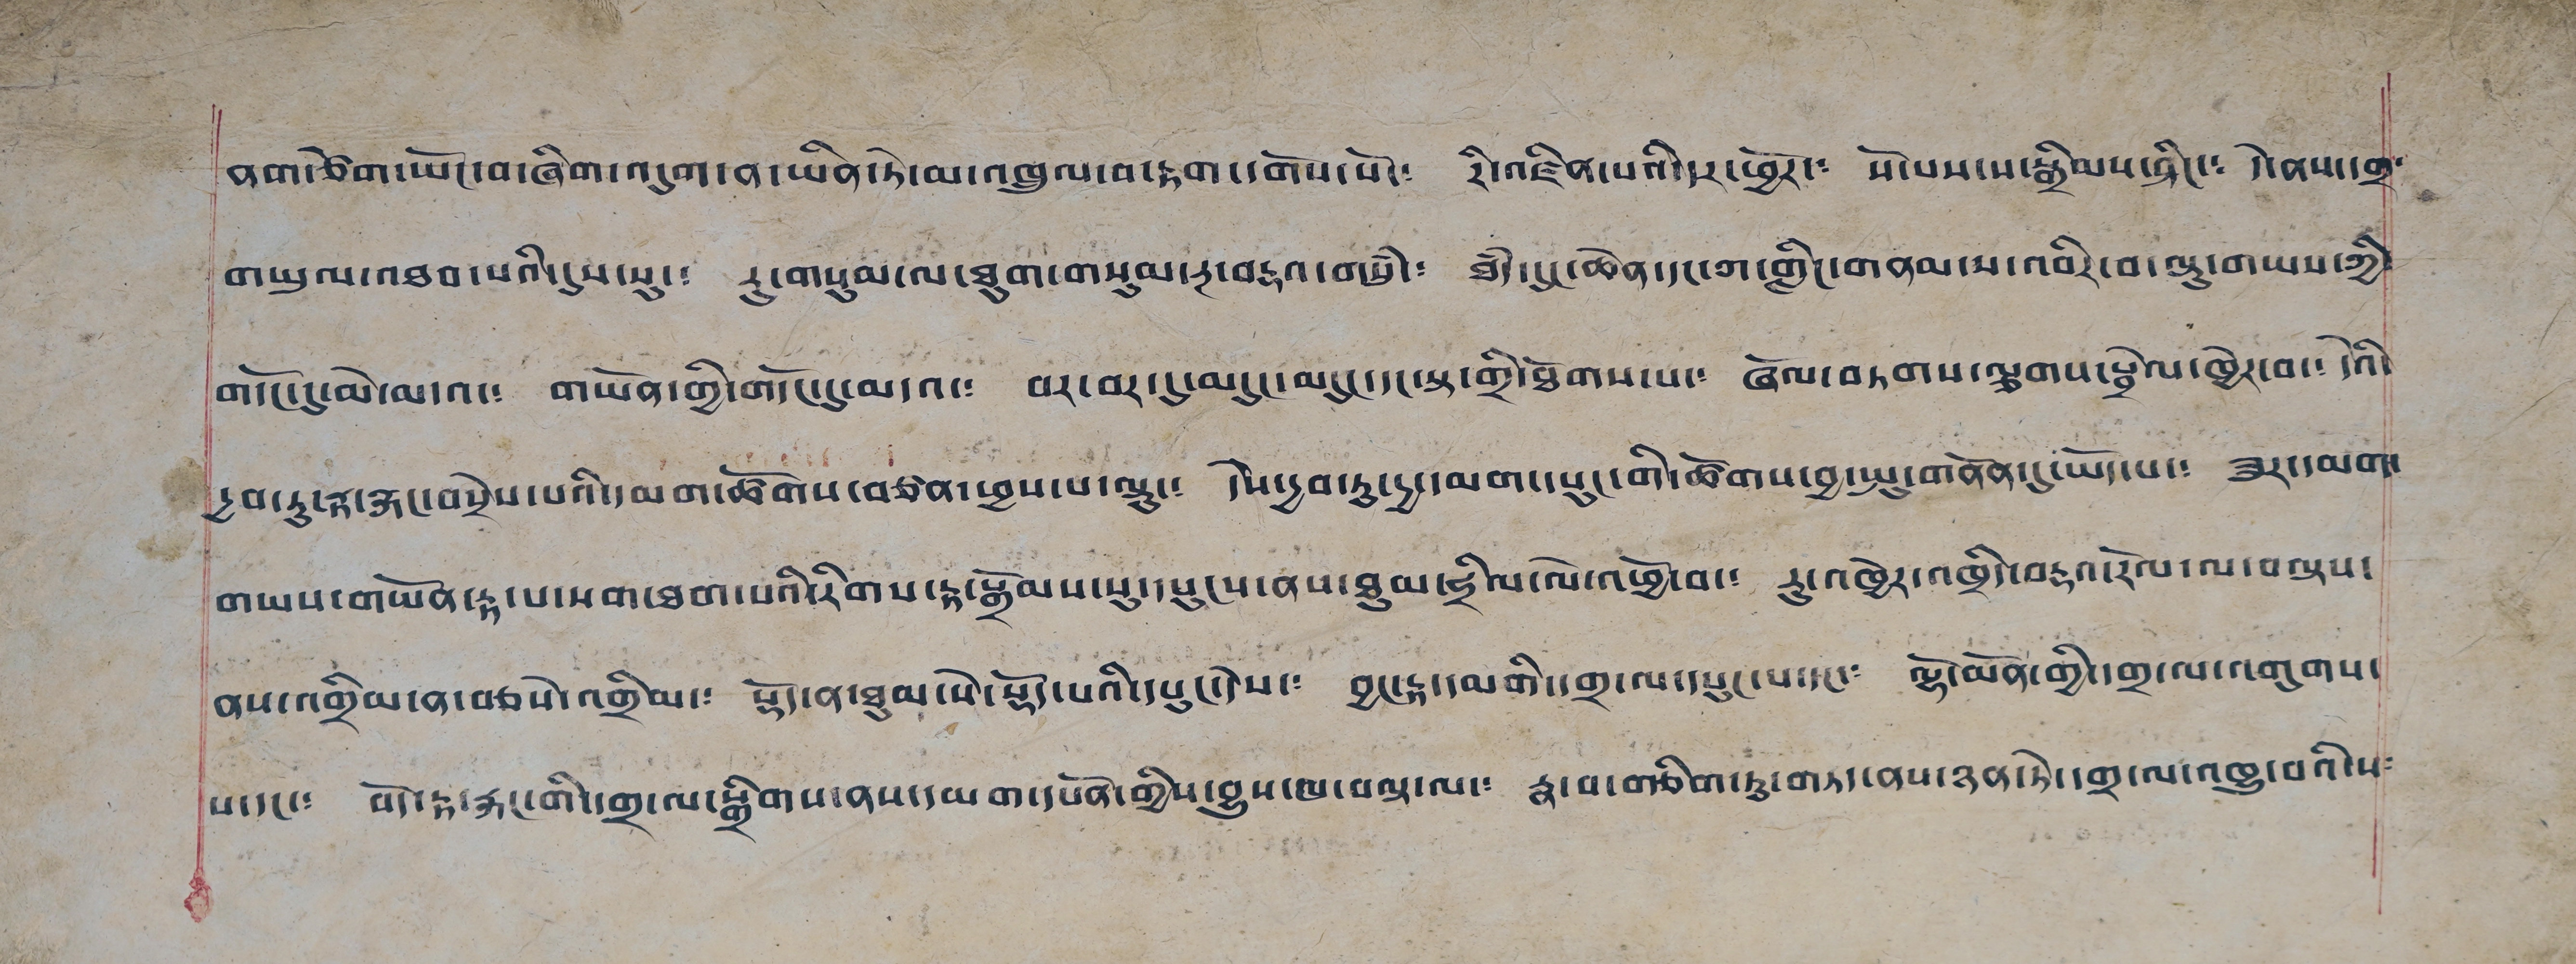ནག་ཙེག་ཡོང་བ་ཞིག་འདུག་ན་ཡིན་ཏེ་མ་འཁྲུལ་བ་རྟག་དགོས་སོ་༴ རི་འཛིན་པའི་དར་ཕྱོར་༴ སོ་པས་པ་སྒྲིམས་ཤིང་། དེ་ནས་དགྲ་
གཡུལ་འཐབ་པའི་དུས་སུ་། རུ་གསུམ་ལ་ཐུག་གསུམ་རྔ་བརྡའ་གསུཾ་། ཐཾད་དུང་ཆེན་དང་ག་གླིང་གནམ་པ་འབིར་བ་ལྟུ་གཡས་ཀྱི་
གདོང་དུ་མེ་མདའ་༴ གཡོན་གྱི་གདོང་དུ་མདའ་༴ བར་བར་དུ་མདུང་མདུང་དང་སྟ་གྲི་ཐོགས་པ་༴ ཞོལ་བཏགས་ལྕགས་སྤྲེལ་ཁྱེར་བ་༴ དེའི་
དྱབ་ཏུ་རྟ་རྐང་བསྲེས་པའི་དམག་ཚོགས་བཙན་ཕྱས་པ་ལྟུ་༴ དེས་དྱབ་ཏུ་དྱ་དམག་དཔུང་གི་ཚོགས་བྱ་སྤུ་གནོན་དུ་ཡོད་པ་༴ ཟུར་དམག་
གཡས་གཡོན་རྟ་པ་སག་ཐག་པའི་རིགས་རྟ་སྒྲོམས་སུ་དཔུངས་ནས་ཐུམ་ཧྲིལ་ལེ་འཕྱོ་བ་༴ རུ་འཁྱེར་འཁྲིད་བརྡའ་རོལ་ལ་བལྟས་
ནས་འགྲིམ་ན་བཅསོ་འགྲིམ་༴ སྡོད་ན་ཐུམ་སེ་སྡོད་པའི་དཔུང་དེས་༴ བྱང་རྟ་དམགི་གྲ་ལ་དཔུང་པ་དང་༴ ལྟོ་མོན་གྱི་གྲ་ལ་འགུགས་
པ་དང་༴ བོད་རྟ་རྐང་གི་དགྲ་ལ་སྒྲིགས་ནས་དམག་དཔོན་གྱིས་བྱུས་ཁ་བལྟ་ལ་༴ རྣ་བ་གཅིག་ཏུ་གཏད་ནས་ཉན་ཏེ་དགྲ་ལ་འཁྱུ་བའི་ས༴
